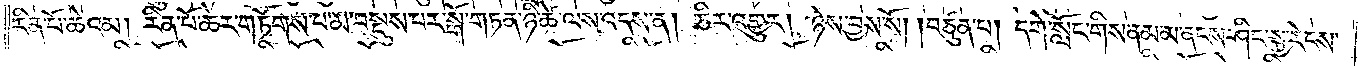རིན་པོ་ཆེའམ། རིན་པོ་ཆེར་གཏོགས་པ་མ་བསྡུས་པར་སྒོ་གཏན་ཉི་ཚེ་ལས་འདས་ན། ཅིར་འགྱུར། ཉེས་བྱས་སོ། །བཙུན་པ། དགེ་སློང་གིས་ནམ་མ་ནངས་ཤིང་སྐྱ་རེངས་
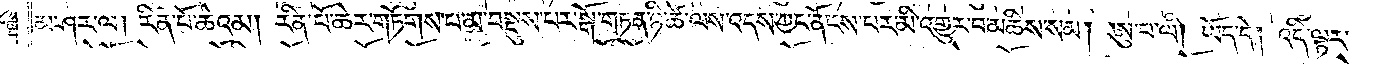མ་ཤར་ལ། རིན་པོ་ཆེའམ། རིན་པོ་ཆེར་གཏོགས་པ་མ་བསྡུས་པར་སྒོ་གཏན་ཉི་ཚེ་ལས་འདས་ཀྱང་ནོངས་པར་མི་འགྱུར་བ་མཆིས་སམ། ཨུ་པ་ལི། ཡོད་དེ། འདི་ལྟར་
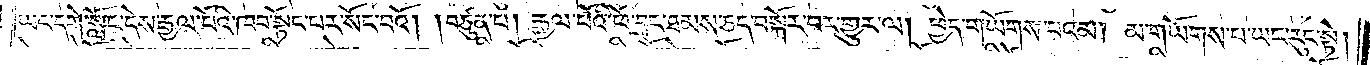ཡང་དགེ་སློང་དེས་རྒྱལ་པོའི་ཁབ་སྟོང་པར་སོང་བའོ། །བཙུན་པ། རྒྱལ་པོའི་ཕོ་བྲང་ཐམས་ཅད་བསྐོར་བར་གྱུར་ལ། ཕྱེད་གཡོགས་པའམ། མ་གཡོགས་པ་ཡང་རུང་སྟེ།
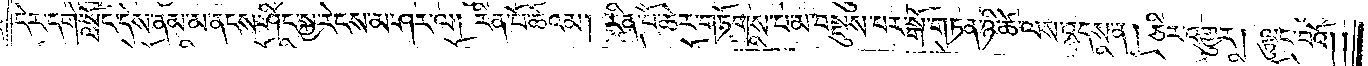དེར་དགེ་སློང་དེས་ནམ་མ་ནངས་ཤིང་སྐྱ་རེངས་མ་ཤར་ལ། རིན་པོ་ཆེའམ། རིན་པོ་ཆེར་གཏོགས་པ་མ་བསྡུས་པར་སྒོ་གཏན་ཉི་ཚེ་ལས་འདས་ན། ཅིར་འགྱུར། ལྟུང་བའོ། །
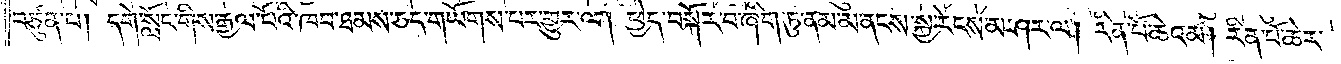བཙུན་པ། དགེ་སློང་གིས་རྒྱལ་པོའི་ཁབ་ཐམས་ཅད་གཡོགས་པར་གྱུར་ལ། ཕྱེད་བསྐོར་བ་ཞིག་ཏུ་ནམ་མ་ནངས་སྐྱ་རེངས་མ་ཤར་ལ། རིན་པོ་ཆེའམ། རིན་པོ་ཆེར་
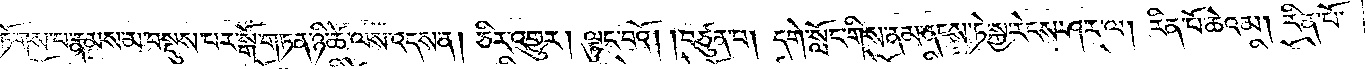གཏོགས་པ་རྣམས་མ་བསྡུས་པར་སྒོ་གཏན་ཉི་ཚེ་ལས་འདས་ན། ཅིར་འགྱུར། ལྟུང་བའོ། །བཙུན་པ། དགེ་སློང་གིས་ནམ་ནངས་ཏེ་སྐྱ་རེངས་ཤར་ལ། རིན་པོ་ཆེའམ། རིན་པོ་
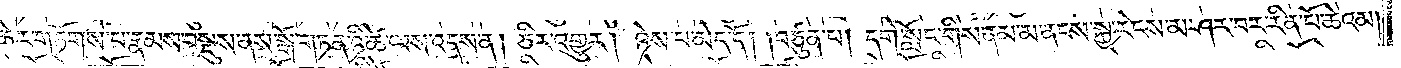ཆེར་གཏོགས་པ་རྣམས་བསྡུས་ནས་སྒོ་གཏན་ཉི་ཚེ་ལས་འདས་ན། ཅིར་འགྱུར། ཉེས་པ་མེད་དོ། །བཙུན་པ། དགེ་སློང་གིས་ནམ་མ་ནངས་སྐྱ་རེངས་མ་ཤར་བར་རིན་པོ་ཆེའམ།
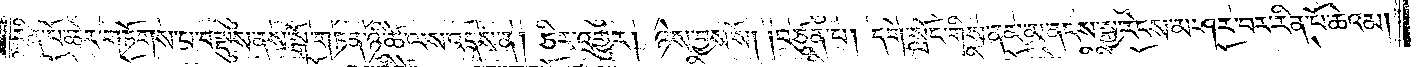རིན་པོ་ཆེར་གཏོགས་པ་མ་བསྡུས་པར་སྒོ་གཏན་ཉི་ཚེ་ལས་འདས་ན། ཅིར་འགྱུར། ཉེས་བྱས་སོ། །བཙུན་པ། དགེ་སློང་གིས་ནམ་མ་ནངས་སྐྱ་རེངས་མ་ཤར་བར་རིན་པོ་ཆེའམ།
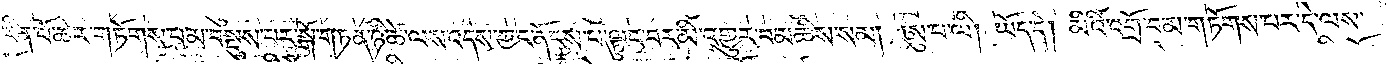རིན་པོ་ཆེར་གཏོགས་པ་མ་བསྡུས་པར་སྒོ་གཏན་ཉི་ཚེ་ལས་འདས་ཀྱང་ནོངས་པ་ལྟུང་བར་མི་འགྱུར་བ་མཆིས་སམ། ཨུ་པ་ལི། ཡོད་དེ། མིའི་འགྲོ་བ་མ་གཏོགས་པར་དེ་ལས་
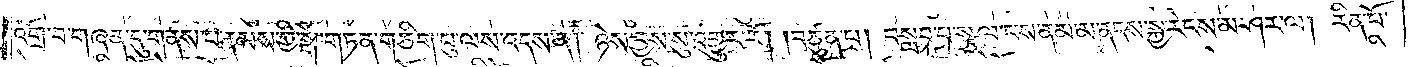འགྲོ་བ་གཞན་དུ་གནས་པ་རྣམས་ཀྱི་སྒོ་གཏན་གཅིག་པུ་ལས་འདས་ན། ཉེས་བྱས་སུ་འགྱུར་རོ། །བཙུན་པ། བསླབ་པ་སྩལ་པས་ནམ་མ་ནངས་སྐྱ་རེངས་མ་ཤར་ལ། རིན་པོ་
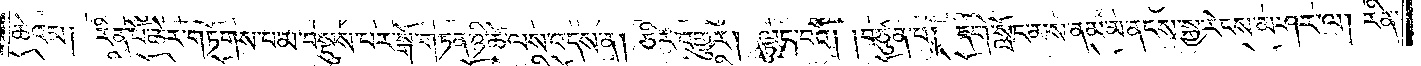ཆེའམ། རིན་པོ་ཆེར་གཏོགས་པ་མ་བསྡུས་པར་སྒོ་གཏན་ཉི་ཚེ་ལས་འདས་ན། ཅིར་འགྱུར། ལྟུང་བའོ། །བཙུན་པ། དགེ་སློང་མས་ནམ་མ་ནངས་སྐྱ་རེངས་མ་ཤར་ལ། རིན་
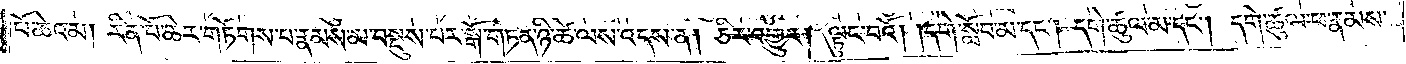པོ་ཆེའམ། རིན་པོ་ཆེར་གཏོགས་པ་རྣམས་མ་བསྡུས་པར་སྒོ་གཏན་ཉི་ཚེ་ལས་འདས་ན། ཅིར་འགྱུར། ལྟུང་བའོ། །དགེ་སློབ་མ་དང༌། དགེ་ཚུལ་མ་དང༌། དགེ་ཚུལ་ཕ་རྣམས་
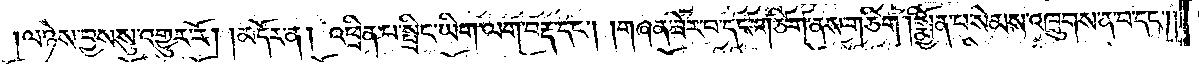ལ་ཉེས་བྱས་སུ་འགྱུར་རོ།    །མདོར་ན། འཕྲིན་པ་སྤྲིང་ཡིག་ལག་བརྡ་དང༌། །གཞན་ཟེར་བ་དང་གཅིག་ནས་གཅིག །སྨྱོན་པ་སེམས་འཁྲུགས་ན་བ་དང༌༎
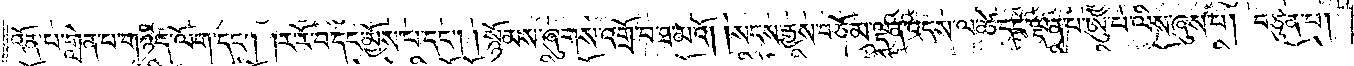འོན་པ་གླེན་པ་གཉིད་ལོག་དང༌། །ར་རོ་བ་དང་མྱོས་པ་དང༌། །སྙོམས་ཞུགས་འགྲོ་བ་ཐ་མ་འོ། །སངས་རྒྱས་བཅོམ་ལྡན་འདས་ལ་ཚེ་དང་ལྡན་པ་ཨུ་པ་ལིས་ཞུས་པ། བཙུན་པ།
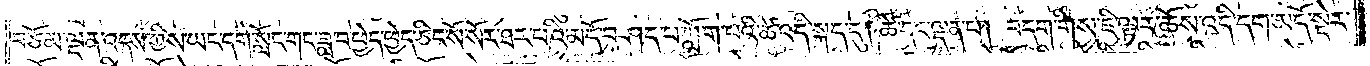བཅོམ་ལྡན་འདས་ཀྱིས་ཡང་དགེ་སློང་གང་ཟླ་བ་ཕྱེད་ཕྱེད་ཅིང་སོ་སོར་ཐར་པའི་མདོ་བཤད་པ་ཀློག་པའི་ཚེ་འདི་སྐད་དུ། ཚེ་དང་ལྡན་པ། བདག་གིས་ཇི་ལྟར་ཆོས་འདི་དག་མདོ་སྡེར་
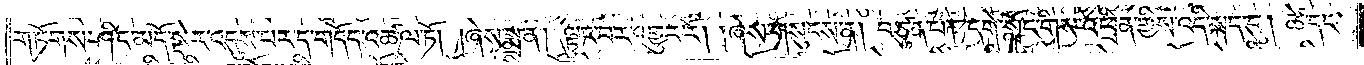གཏོགས་ཤིང་མདོ་སྡེར་འདུས་པར་ད་གདོད་འཚལ་ཏོ། །ཞེས་སྨྲ་ན། ལྟུང་བར་འགྱུར་རོ། །ཞེས་གསུངས་ན། བཙུན་པ། དགེ་སློང་གིས་འཕྲིན་གྱིས་འདི་སྐད་དུ། ཚེ་དང་
